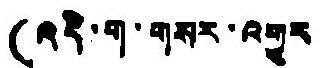(འདི་ག་གསར་འགྱུར
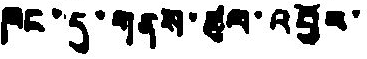ཁང་དུ་གནས་ཚུལ་འབྱོར་
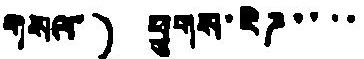གསལ་) ཕྱུགས་རིཌ་་་་
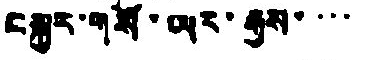བསྐྱར་གསོ་ཡར་རྒྱས་་་་
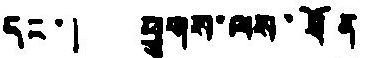དང་། ཕྱུགས་ལས་ཐོན
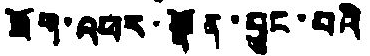ཟོག་འཕར་སྟོན་བྱུང་བའི
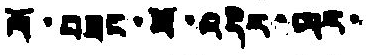ལོ་བཟང་པོ་འདིར་ཡར་
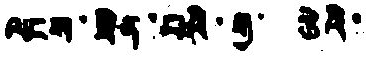ལངས་ཟེན་པའི་རྒྱ་ ཆེའི་
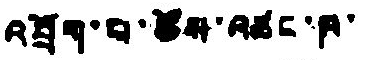འབྲོག་པ་ཚོས་འཚང་ཁ་
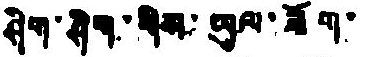ཤིག་ཤིག་གིས་ཡུལ་ཟོག་
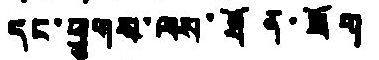དང་ཕྱུགས་ལས་ཐོན་ཟོག
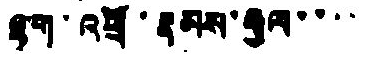ལྷག་འཕྲོ་རྣམས་རྒྱལ་་་་
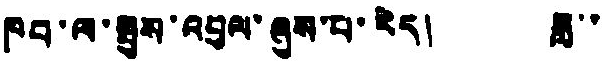ཁབ་ལ་སྤུས་འབུལ་ཞུས་པ་རེད། ཟླ་་
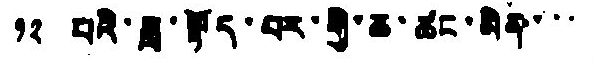༡༢ པའི་ཟླ་སྟོད་བར་གྱི་ཆ་ཚང་མིན་་་
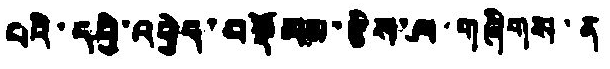པའི་དབྱེ་འབྱེད་བསྡོམས་རྩིས་ལ་གཞིགས་ན
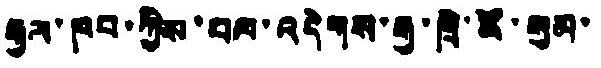རྒྱལ་ཁབ་ཀྱིས་པལ་འདེགས་རྒྱ་ཁྲི་ཚོ་སུམ་
